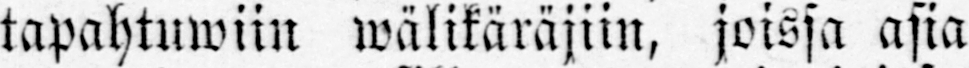tapahtuwiin wälikäräjiin, joissa asia
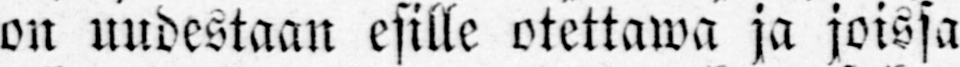on uudestaan esille otettawa ja joissa
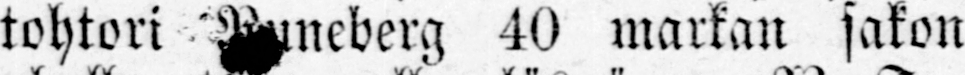tohtori Runeberg 40 markan sakon
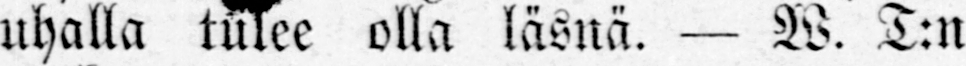uhalla tulee olla läsnä. — W. T:n
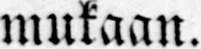mukaan.
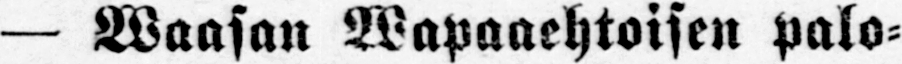— Waasan Wapaaehtoisen palo-
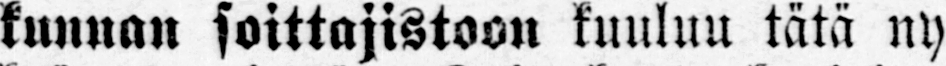kunnan soittajistoon kuuluu tätä ny-
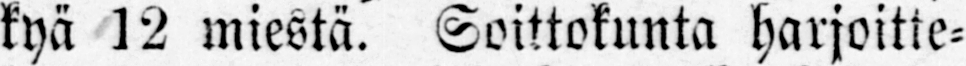kyä 12 miestä. Soittokunta harjoitte-
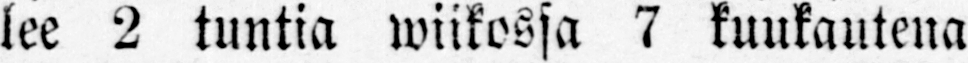lee 2 tuntia wiikossa 7 kuukautena
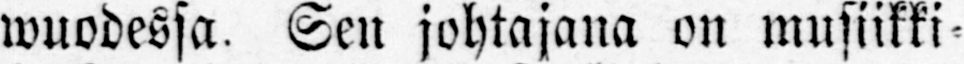wuodessa. Sen johtajana on musiikki-
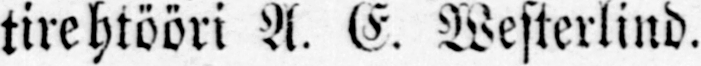tirehtööri A. E. Westerlind.
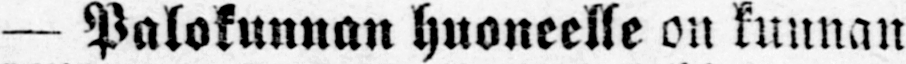— Palokunnan huoneelle on kunnan
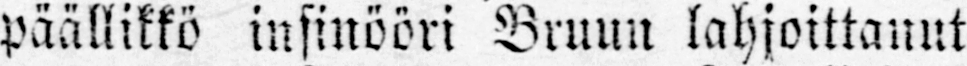päällikkö insinööri Bruun lahjoittanut
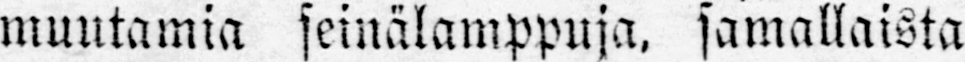muutamia seinälamppuja, samallaista
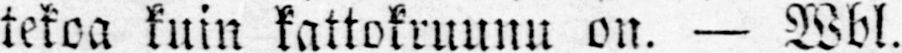tekoa kuin kattokruunu on. — Wbl.
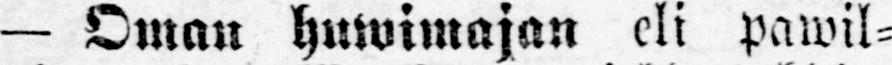— Oman huwimajan eli pawil-
